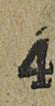4
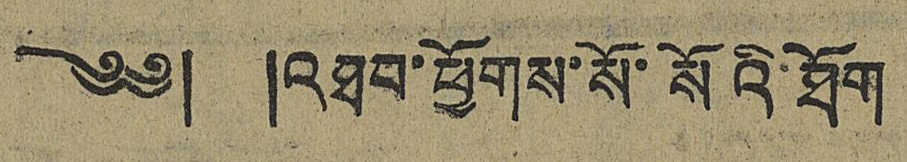༄༅། །འཐབ་ཕྱོགས་སོ་སོའི་ཐོག
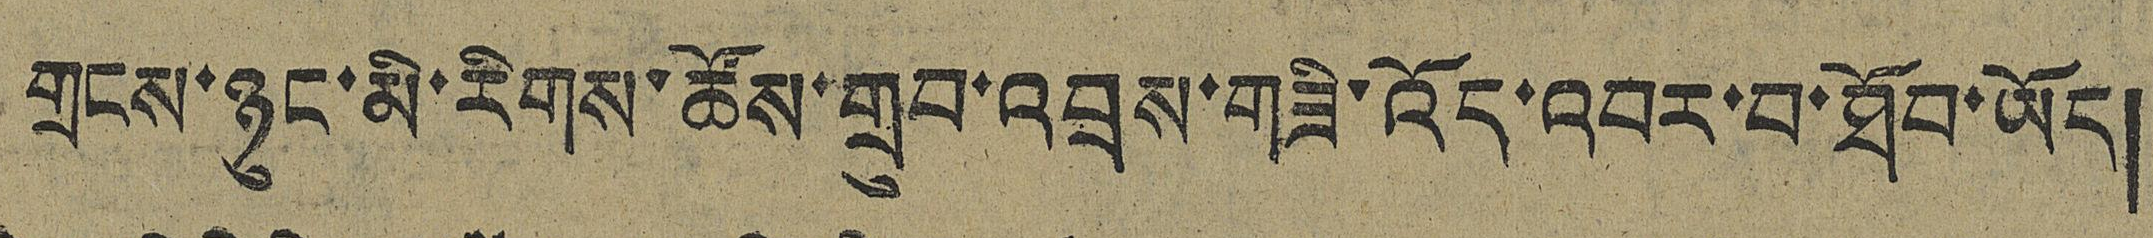གྲངས་ཉུང་མི་རིགས་ཚོས་གྲུབ་འབྲས་གཟི་འོད་འབར་བ་ཐོབ་ཡོད།
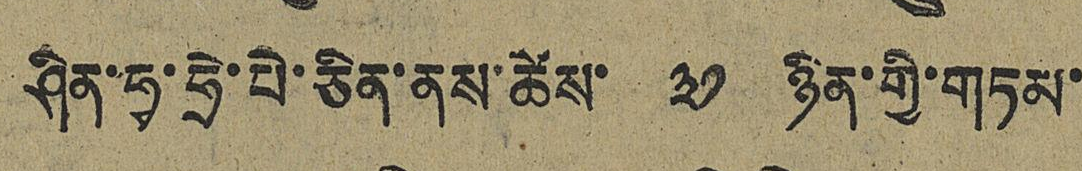ཤིན་ཧྭ་ཧྲེ་པེ་ཅིན་ནས་ཚེས་ ༣༡ ཉིན་གྱི་གཏམ་
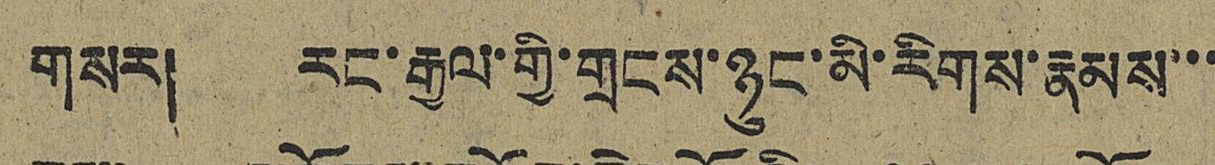གསར། རང་རྒྱལ་གྱི་གྲངས་ཉུང་མི་རིགས་རྣམས་་་
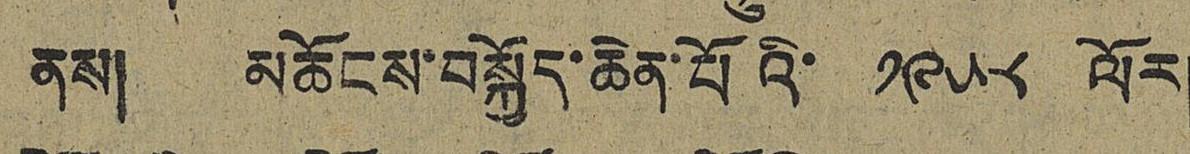ནས། མཆོངས་བསྐྱོད་ཆེན་པོའི་ ༡༩༥༨ ལོར།
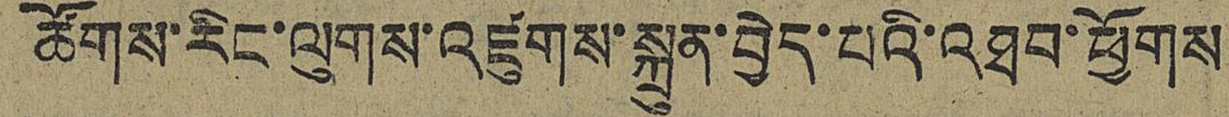ཚོགས་རིང་ལུགས་འཛུགས་སྐྲུན་བྱེད་པའི་འཐབ་ཕྱོགས
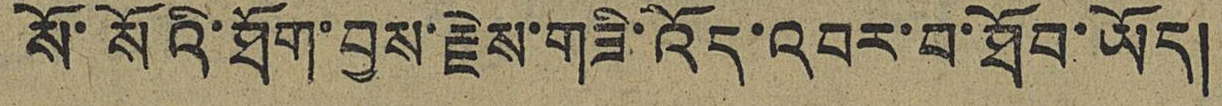སོ་སོའི་ཐོག་བྱས་རྗེས་གཟི་འོད་འབར་བ་ཐོབ་ཡོད།
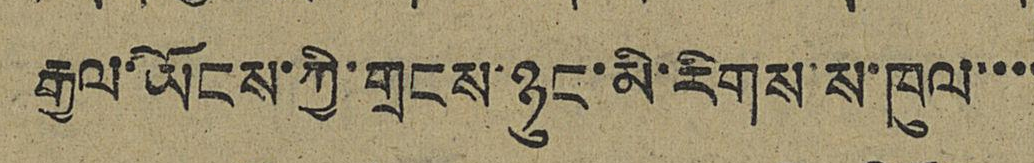རྒྱལ་ཡོངས་ཀྱི་གྲངས་ཉུང་མི་རིགས་ས་ཁུལ་་་་
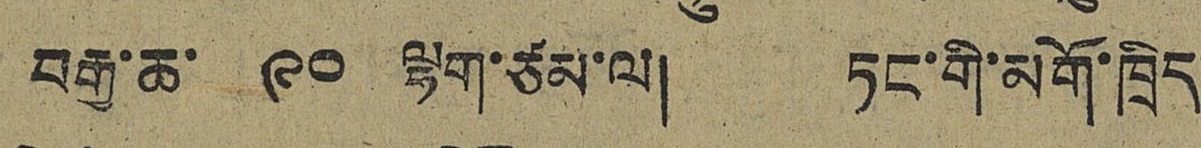བརྒྱ་ཆ་ ༩༠ ལྷག་ཙམ་ལ། ཏང་གི་མགོ་ཁྲིད་
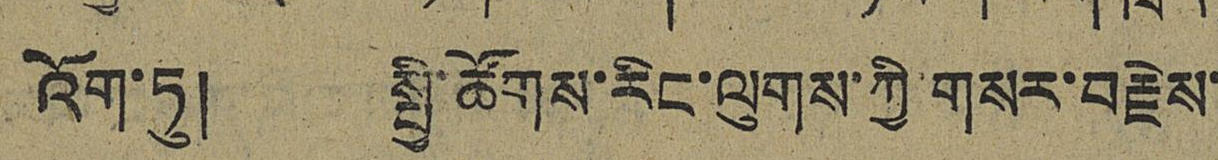འོག་ཏུ། སྤྱི་ཚོགས་རིང་ལུགས་ཀྱི་གསར་བརྗེས་
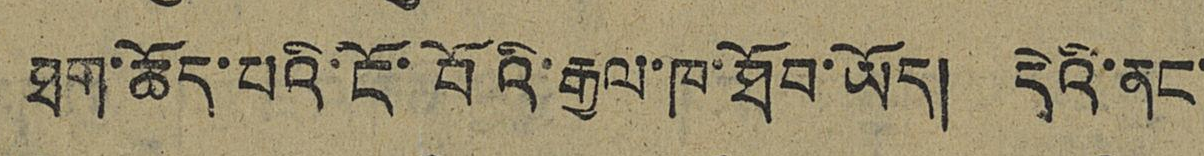ཐག་ཆོད་པའི་ངོ་བོའི་རྒྱལ་ཁ་ཐོབ་ཡོད། དེའི་ནང་
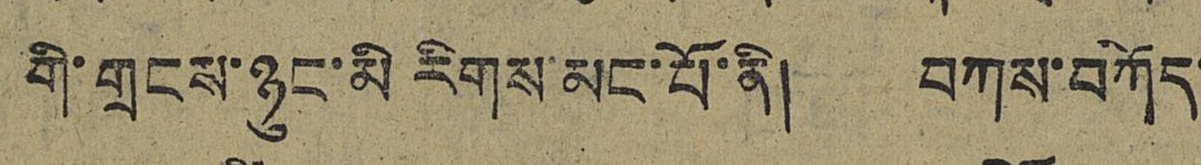གི་གྲངས་ཉུང་མི རིགས་མང་པོ་ནི། བཀས་བཀོད་
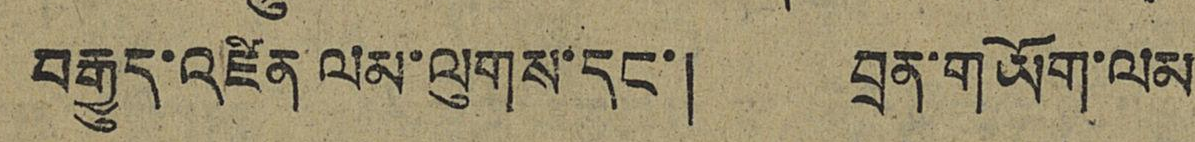བརྒྱུད་འཛིན་ལམ་ལུགས་དང་། བྲན་གཡོག་ལམ་
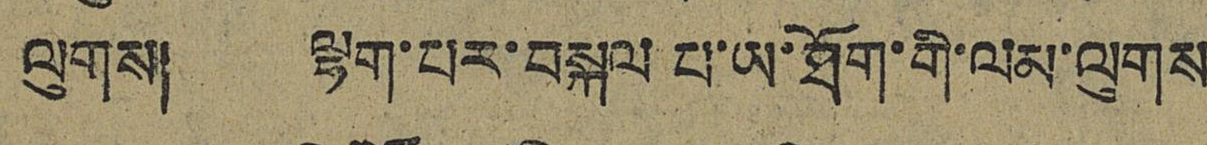ལུགས། ལྷག་པར་བསྐལ པ་ཡ་ཐོག་གི་ལམ་ལུགས
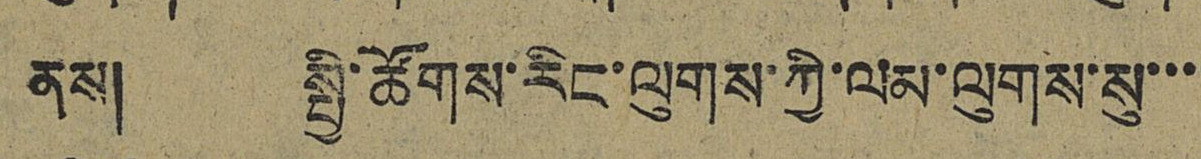ནས། སྤྱི་ཚོགས་རིང་ལུགས་ཀྱི་ལམ་ལུགས་སུ་་་
